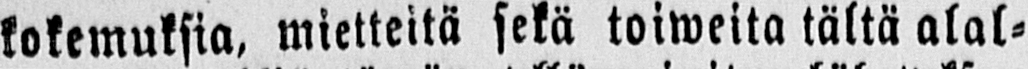kokemuksia, mietteitä sekä toiweita tältä alal-
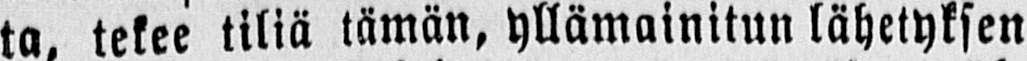ta tekee tiliä tämän, yllämainitun lähetyksen
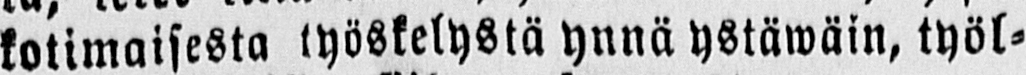kotimaisesta työstelystä ynnä ystäwäin, työl-
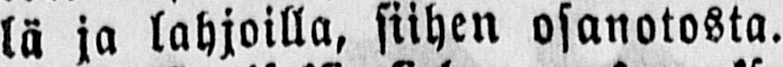lä ja lahjoilla, siihen osanotosta.
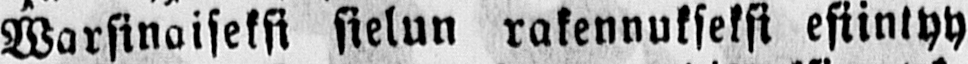Warsinaiseksi sielun rakennukseksi esiintyy
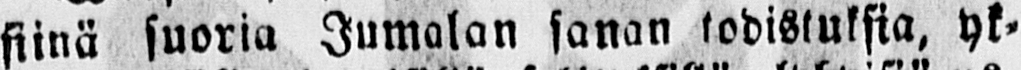siinä suoria Jumalan sanan todistuksia, yk-
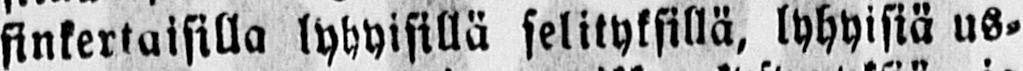sinkertaisilla lyhyisillä selityksillä, lyhyisiä us-
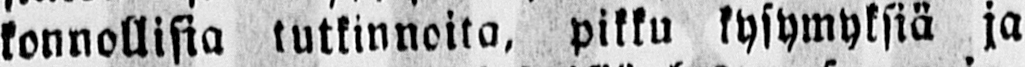konnollisia tutkinnoita, pikku kysymyksiä ja
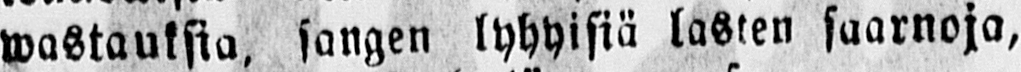wastauksia, sangen lyhyisiä lasten saarnoja,
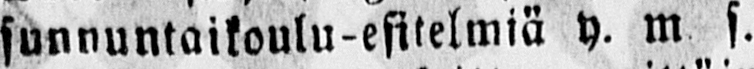sunnuntaikoulu-esitelmiä y. m s.
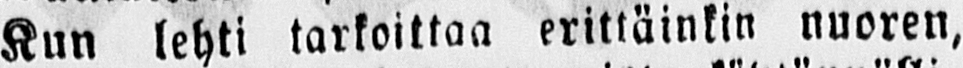Kun lehti tarkoittaa erittäinkin nuoren,
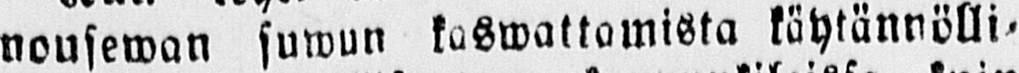nousewan suwun kaswattamista käytännölli-
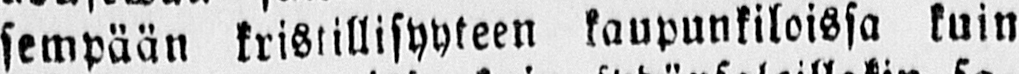sempään kristillisyyteen kaupunkiloissa kuin
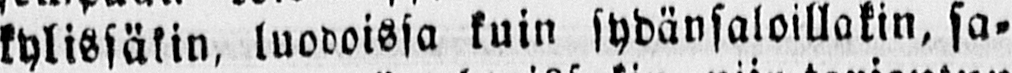kylissäkin, luodoissa kuin sydänsaloillakin, sa-
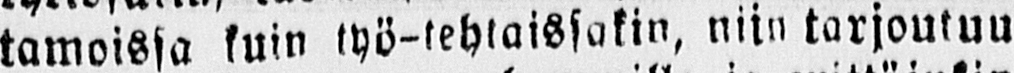tamoissa kuin työ-tehtaissakin, niin tarjoutuu
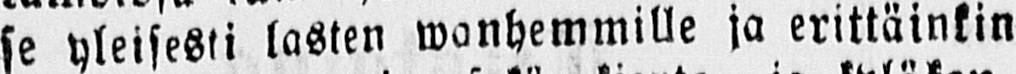se yleisesti lasten wanhemmille ja erittäinkin
